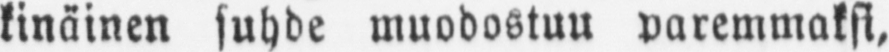kinäinen suhde muodostuu paremmaksi,
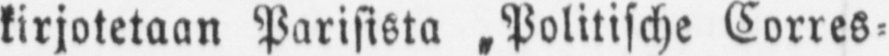kirjotetaan Parisista ˶Politische Corres-
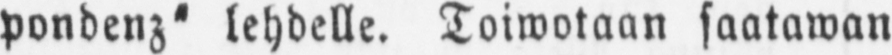pondenz" lehdelle. Toiwotaan saatawan
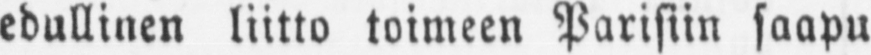edullinen liitto toimeen Parisiin saapu-
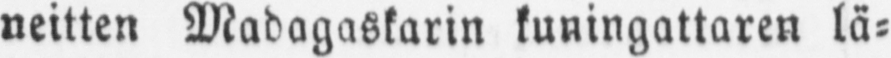neitten Madagaskarin kuningattaren lä-
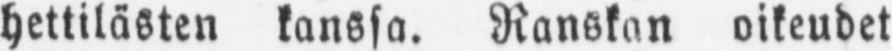hettilästen kanssa. Ranskan oikeudet
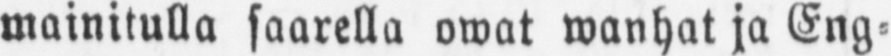mainitulla saarella owat wanhat ja Eng-
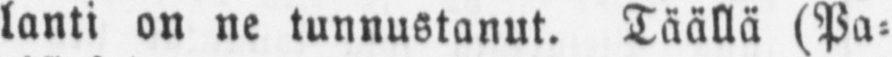lanti on ne tunnustanut. Täällä (Pa-
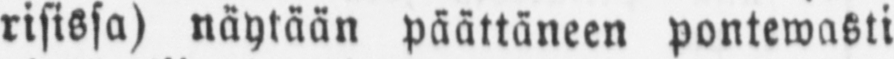risissa) näykään päättäneen pontewasti
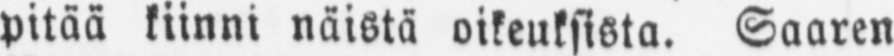pitää kiinni näistä oikeuksista. Saaren
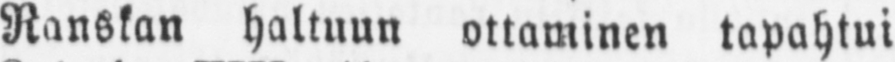Ranskan haltuun ottaminen tapahtui
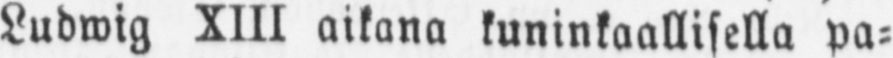Ludwig XIII aikana kuninkaallisella pa-
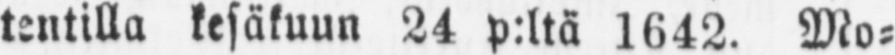tentilla kesäkuun 24 p:ltä 1642. Mo-
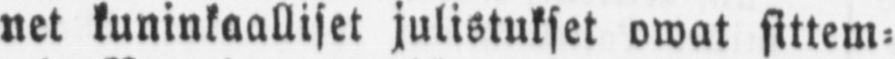net kuninkaalliset julistukset owat sittem-
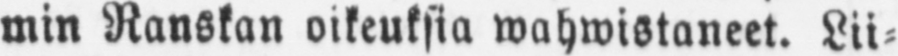min Ranskan oikeuksia wahwistaneet. Lii-
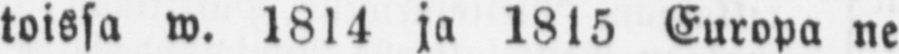toissa w. 1814 ja 1815 Europa ne
